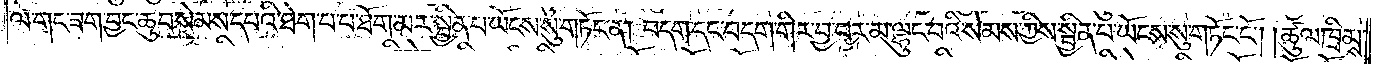ལ་གང་ཟག་བྱང་ཆུབ་སེམས་དཔའི་ཐེག་པ་པ་ཐོག་མར་སྦྱིན་པ་ཡོངས་སུ་གཏོང་ན། བདག་དང་བདག་གིར་བྱ་བར་མ་ལྟུང་བའི་སེམས་ཀྱིས་སྦྱིན་པ་ཡོངས་སུ་གཏོང་ངོ༌། །ཚུལ་ཁྲིམས་
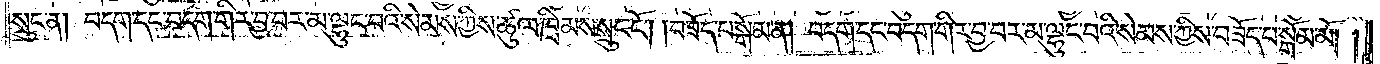སྲུང་ན། བདག་དང་བདག་གིར་བྱ་བར་མ་ལྟུང་བའི་སེམས་ཀྱིས་ཚུལ་ཁྲིམས་སྲུང་ངོ༌། །བཟོད་པ་སྒོམ་ན། བདག་དང་བདག་གིར་བྱ་བར་མ་ལྟུང་བའི་སེམས་ཀྱིས་བཟོད་པ་སྒོམ་མོ། །
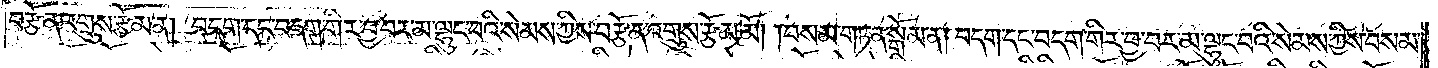བརྩོན་འགྲུས་རྩོམ་ན། བདག་དང་བདག་གིར་བྱ་བར་མ་ལྟུང་བའི་སེམས་ཀྱིས་བརྩོན་འགྲུས་རྩོམ་མོ། །བསམ་གཏན་སྒོམ་ན། བདག་དང་བདག་གིར་བྱ་བར་མ་ལྟུང་བའི་སེམས་ཀྱིས་བསམ་
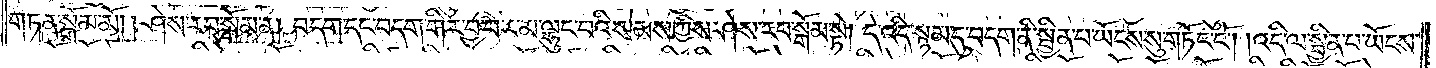གཏན་སྒོམ་མོ། །ཤེས་རབ་སྒོམ་ན། བདག་དང་བདག་གིར་བྱ་བར་མ་ལྟུང་བའི་སེམས་ཀྱིས་ཤེས་རབ་སྒོམ་སྡེ། དེ་འདི་སྙམ་དུ་བདག་ནི་སྦྱིན་པ་ཡོངས་སུ་གཏོང་ངོ༌། །འདི་ལ་སྦྱིན་པ་ཡོངས་
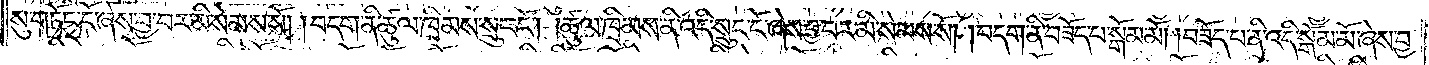སུ་གཏོང་ངོ་ཞེས་བྱ་བར་སེམས་སོ། །བདག་ནི་ཚུལ་ཁྲིམས་སྲུང་ངོ༌། །ཚུལ་ཁྲིམས་ནི་འདི་སྲུང་ངོ་ཞེས་བྱ་བར་མི་སེམས་སོ། །བདག་ནི་བཟོད་པ་སྒོམ་མོ། །བཟོད་པ་ནི་འདི་སྒོམ་མོ་ཞེས་བྱ་
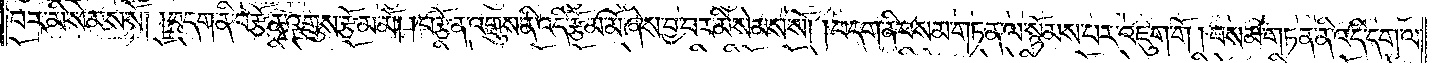བར་མི་སེམས་སོ། །བདག་ནི་བརྩོན་འགྲུས་རྩོམ་མོ། །བརྩོན་འགྲུས་ནི་འདི་རྩོམ་མོ་ཞེས་བྱ་བར་མི་སེམས་སོ། །བདག་ནི་བསམ་གཏན་ལ་སྙོམས་པར་འཇུག་གོ། །བསམ་གཏན་ནི་འདི་དག་ལ་
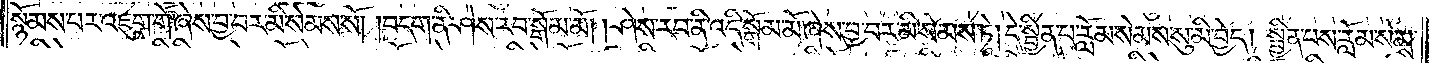སྙོམས་པར་འཇུག་གོ་ཞེས་བྱ་བར་མི་སེམས་སོ། །བདག་ནི་ཤེས་རབ་སྒོམ་མོ། །ཤེས་རབ་ནི་འདི་སྒོམ་མོ་ཞེས་བྱ་བར་མི་སེམས་ཏེ། དེ་སྦྱིན་པ་རློམ་སེམས་སུ་མི་བྱེད། སྦྱིན་པས་རློམ་སེམས་
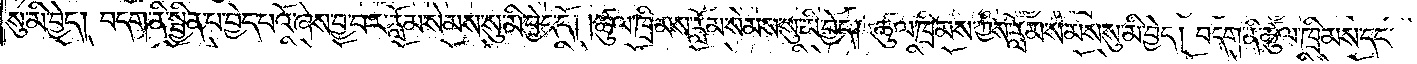སུ་མི་བྱེད། བདག་ནི་སྦྱིན་པ་བྱེད་པའོ་ཞེས་བྱ་བར་རློམ་སེམས་སུ་མི་བྱེད་དོ། །ཚུལ་ཁྲིམས་རློམ་སེམས་སུ་མི་བྱེད། ཚུལ་ཁྲིམས་ཀྱིས་རློམ་སེམས་སུ་མི་བྱེད། བདག་ནི་ཚུལ་ཁྲིམས་དང་
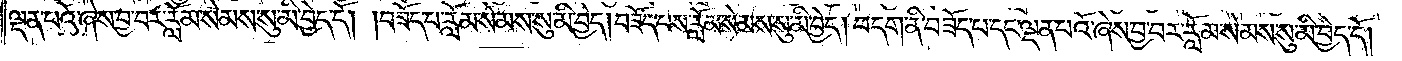ལྡན་པའོ་ཞེས་བྱ་བར་རློམ་སེམས་སུ་མི་བྱེད་དོ། །བཟོད་པ་རློམ་སེམས་སུ་མི་བྱེད། བཟོད་པས་རློམ་སེམས་སུ་མི་བྱེད། བདག་ནི་བཟོད་པ་དང་ལྡན་པའོ་ཞེས་བྱ་བར་རློམ་སེམས་སུ་མི་བྱེད་དོ། །
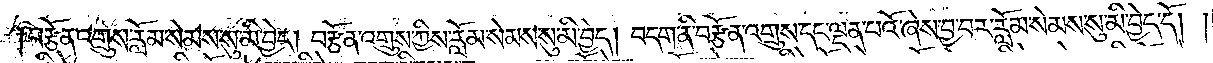བརྩོན་འགྲུས་རློམ་སེམས་སུ་མི་བྱེད། བརྩོན་འགྲུས་ཀྱིས་རློམ་སེམས་སུ་མི་བྱེད། བདག་ནི་བརྩོན་འགྲུས་དང་ལྡན་པའོ་ཞེས་བྱ་བར་རློམ་སེམས་སུ་མི་བྱེད་དོ། །
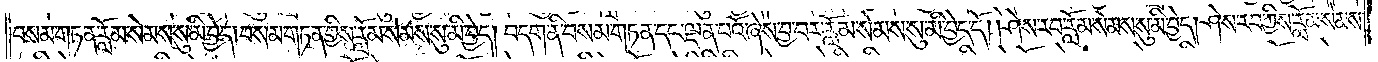བསམ་གཏན་རློམ་སེམས་སུ་མི་བྱེད། བསམ་གཏན་གྱིས་རློམ་སེམས་སུ་མི་བྱེད། བདག་ནི་བསམ་གཏན་དང་ལྡན་པའོ་ཞེས་བྱ་བར་རློམ་སེམས་སུ་མི་བྱེད་དོ། །ཤེས་རབ་རློམ་སེམས་སུ་མི་བྱེད། ཤེས་རབ་ཀྱིས་རློམ་སེམས་
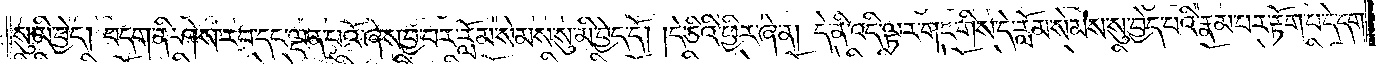སུ་མི་བྱེད། བདག་ནི་ཤེས་རབ་དང་ལྡན་པའོ་ཞེས་བྱ་བར་རློམ་སེམས་སུ་མི་བྱེད་དོ། །དེ་ཅིའི་ཕྱིར་ཞེ་ན། དེ་ནི་འདི་ལྟར་གང་གིས་དེ་རློམ་སེམས་སུ་བྱེད་པའི་རྣམ་པར་རྟོག་པ་དེ་དག་
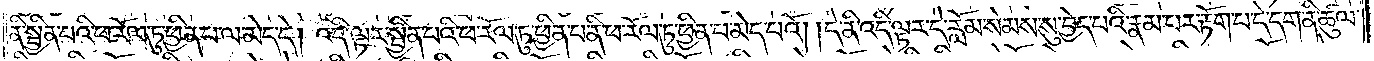ནི་སྦྱིན་པའི་ཕ་རོལ་ཏུ་ཕྱིན་པ་ལ་མེད་དེ། འདི་ལྟར་སྦྱིན་པའི་ཕ་རོལ་ཏུ་ཕྱིན་པ་ནི་ཕ་རོལ་ཏུ་ཕྱིན་པ་མེད་པའོ། །དེ་ནི་འདི་ལྟར་དེ་རློམ་སེམས་སུ་བྱེད་པའི་རྣམ་པར་རྟོག་པ་དེ་དག་ནི་ཚུལ་
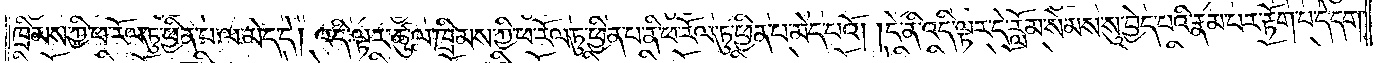ཁྲིམས་ཀྱི་ཕ་རོལ་ཏུ་ཕྱིན་པ་ལ་མེད་དེ། འདི་ལྟར་ཚུལ་ཁྲིམས་ཀྱི་ཕ་རོལ་ཏུ་ཕྱིན་པ་ནི་ཕ་རོལ་ཏུ་ཕྱིན་པ་མེད་པའོ། །དེ་ནི་འདི་ལྟར་དེ་རློམ་སེམས་སུ་བྱེད་པའི་རྣམ་པར་རྟོག་པ་དེ་དག་
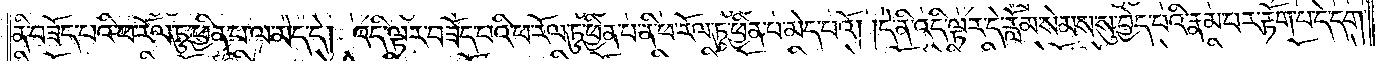ནི་བཟོད་པའི་ཕ་རོལ་ཏུ་ཕྱིན་པ་ལ་མེད་དེ། འདི་ལྟར་བཟོད་པའི་ཕ་རོལ་ཏུ་ཕྱིན་པ་ནི་ཕ་རོལ་ཏུ་ཕྱིན་པ་མེད་པའོ། །དེ་ནི་འདི་ལྟར་དེ་རློམ་སེམས་སུ་བྱེད་པའི་རྣམ་པར་རྟོག་པ་དེ་དག་
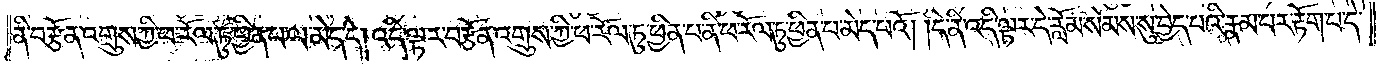ནི་བརྩོན་འགྲུས་ཀྱི་ཕ་རོལ་ཏུ་ཕྱིན་པ་ལ་མེད་དེ། འདི་ལྟར་བརྩོན་འགྲུས་ཀྱི་ཕ་རོལ་ཏུ་ཕྱིན་པ་ནི་ཕ་རོལ་ཏུ་ཕྱིན་པ་མེད་པའོ། །དེ་ནི་འདི་ལྟར་དེ་རློམ་སེམས་སུ་བྱེད་པའི་རྣམ་པར་རྟོག་པ་དེ་
